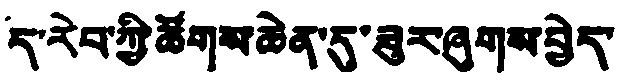ད་རེབ་ཀྱི་ཚོགས་ཆེན་དུ་ཟུར་ཞུགས་བྱེད་
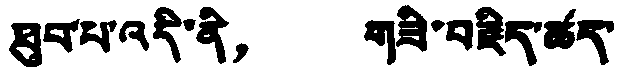ཐུབ་པ་འདི་ནི， གཟི་བརྗིད་ཚད་
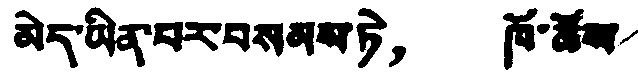མེད་ཡིན་པར་བསམས་ཏེ， ཁོ་ཚོས
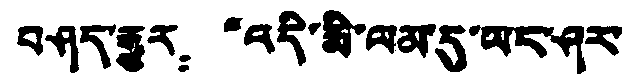བཤད་རྒྱུར： “འདི་མི་ལམ་དུ་ཡང་ཤར་
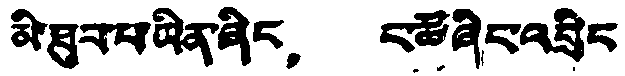མི་ཐུབ་པ་ཡིན་ཞིང， ང་ཚོ་ཞིང་འབྲིང
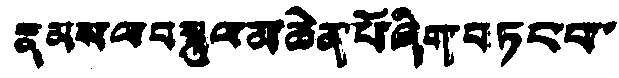རྣམས་ལབསྣལམ་ཆེན་པོ་ཞིག་བཏང་བ་
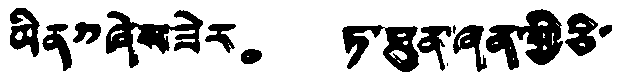ཡིན”ཞེས་ཟེར。 ཏ་ཐུན་ཞན་གྱི ཅི་
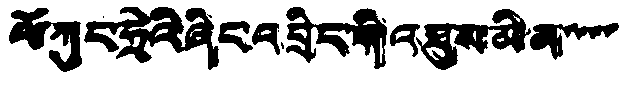ལོ་ཀུང་ཧྲེའི་ཞིང་འབྲིང་གི་འཐུས་མི་མ་་་་
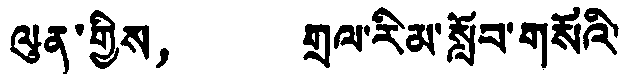ལུན་གྱིས， གྲལ་རིམ་སློབ་གསོའི་
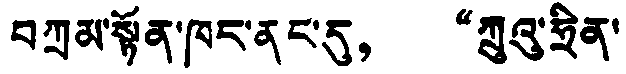བཀྲམ་སྟོན་ཁང་ནང་དུ， “ཀྲུའུ་ཧྲིན་
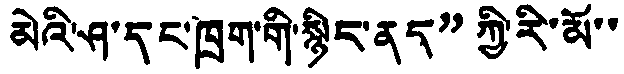མེའི་ཤ་དང་ཁྲག་གི་སྙིང་ནད” ཀྱི་རི་མོ་་
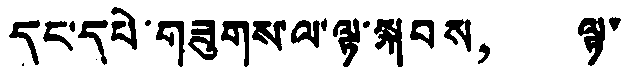དང་དཔེ་གཟུགས་ལ་ལྟ་སྐབས， ལྷ་
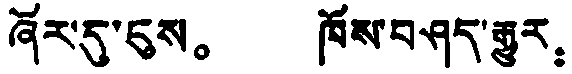ཞོར་དུ་ངུས。 ཁོས་བཤད་རྒྱུར：
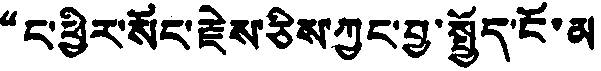“ང་ཕྱིར་སོང་རྗེས་ཅིས་ཀྱང་བྱ་སྤྱོད་ངོ་མ
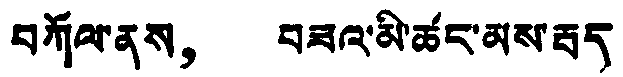བཀོལ་ནས， བཟའ་མི་ཚང་མས་རྦད་
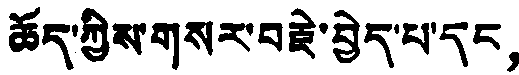ཆོད་ཀྱིས་གསར་བརྗེ་བྱེད་པ་དང，
